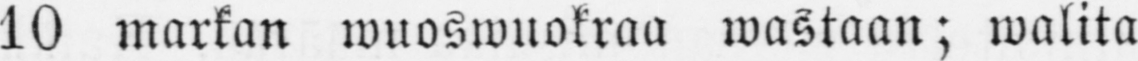10 markan wuoswuokraa wastaan; walita
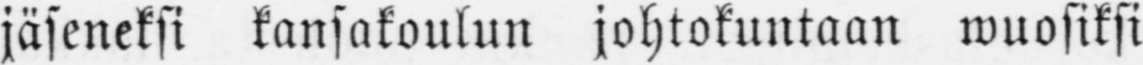jäseneksi kansakoulun johtokuntaan wuosiksi
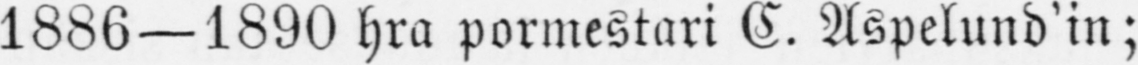1866—1890 hra pormestari C. Aspelund'in;
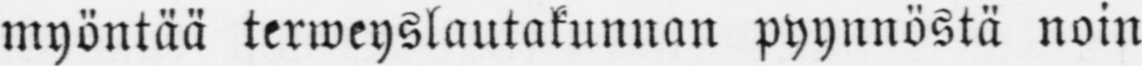myöntää terweyslautakunnan pyynnöstä noin
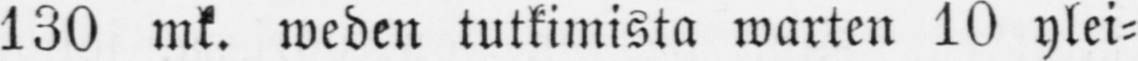130 mk. weden tutkimista warten 10 ylei-
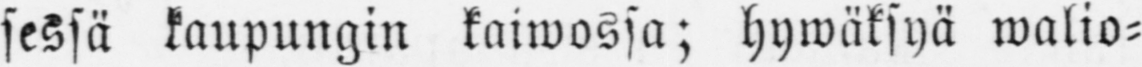sessä kaupungin kaiwossa; hywäksyä walio-
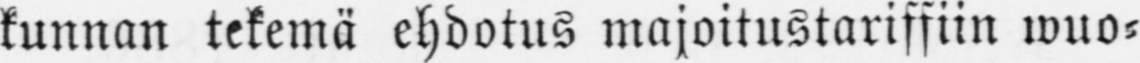kunnan tekemä ehdotus majoitustariffiin wuo-
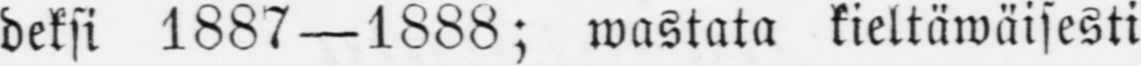deksi 1887 —1888; wastata kieltäwäisesti
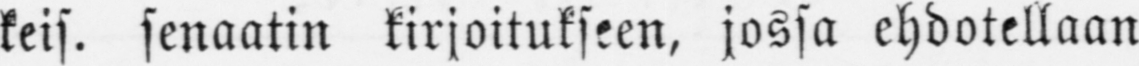keis. senaatin kirjoitukseen, jossa ehdotellaan
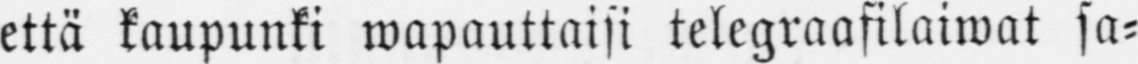että kaupunki wapauttaisi telegraafilaiwat sa-
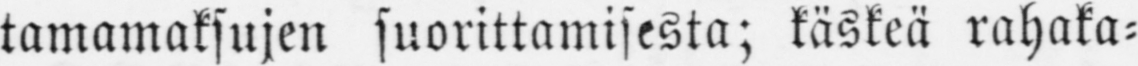tamamaksujen suorittamisesta; käskeä rahaka-
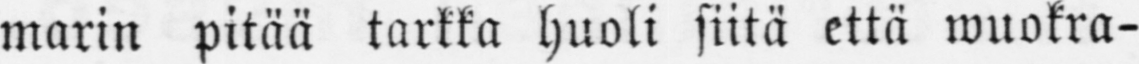marin pitää tarkka huoli siitä että wuokra-
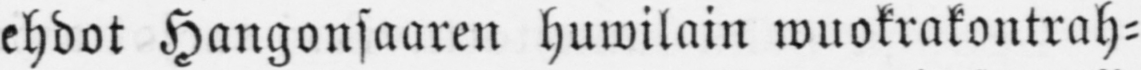ehdot Hangonsaaren huwilain wuokrakontrah-
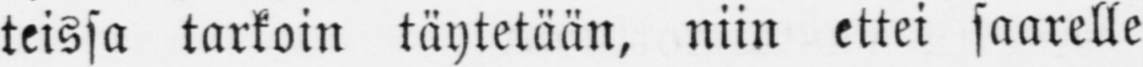teissa tarkoin täytetään, niin ettei saarelle
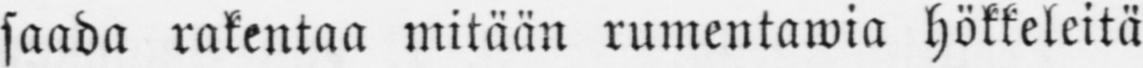saada rakentaa mitään rumentawia hökkeleitä
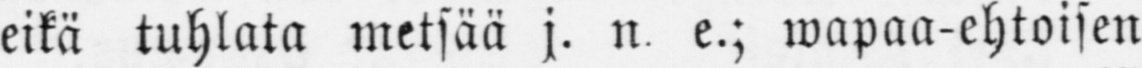eikä tuhlata metsää j. n. e.; wapaa-ehtoisen
